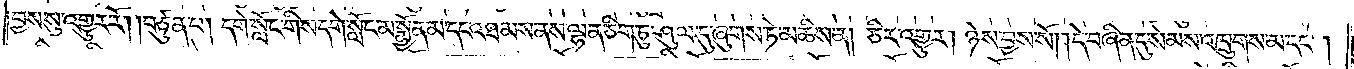བྱས་སུ་འགྱུར་རོ། །བཙུན་པ། དགེ་སློང་གིས་དགེ་སློང་མ་སྨྱོན་མ་དང་འཐམས་ནས་ལྷན་ཅིག་ཏུ་ཤུལ་དུ་ཞུགས་ཏེ་མཆིས་ན། ཅིར་འགྱུར། ཉེས་བྱས་སོ། །དེ་བཞིན་དུ་སེམས་འཁྲུགས་མ་དང༌།
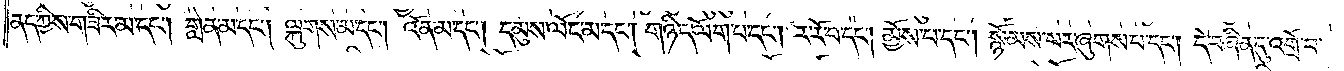ནད་ཀྱིས་གཟིར་མ་དང༌། གླེན་མ་དང༌། ལྐུགས་མ་དང༌། འོན་མ་དང༌། དམུས་ལོང་མ་དང༌། གཉིད་ལོག་པ་དང༌། ར་རོ་བ་དང༌། མྱོས་པ་དང༌། སྙོམས་པར་ཞུགས་པ་དང༌། དེ་བཞིན་དུ་འགྲོ་བ་
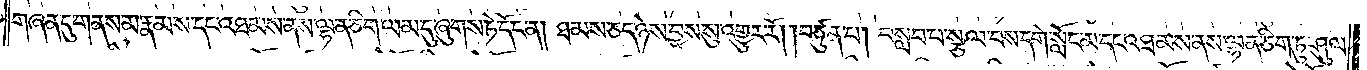གཞན་དུ་གནས་མ་རྣམས་དང་འཐམས་ནས་ལྷན་ཅིག་ལམ་དུ་ཞུགས་ཏེ་དོང་ན། ཐམས་ཅད་ཉེས་བྱས་སུ་འགྱུར་རོ། །བཙུན་པ། བསླབ་པ་སྩལ་བས་དགེ་སློང་མ་དང་འཐམས་ནས་ལྷན་ཅིག་ཏུ་ཤུལ་
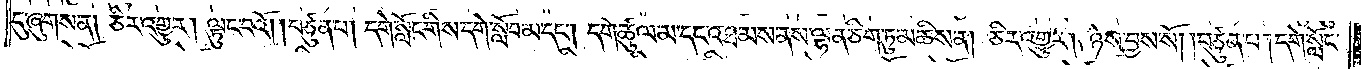དུ་ཞུགས་ན། ཅིར་འགྱུར། ལྟུང་བའོ། །བཙུན་པ། དགེ་སློང་གིས་དགེ་སློབ་མ་དང༌། དགེ་ཚུལ་མ་དང་འཐམས་ནས་ལྷན་ཅིག་ཏུ་མཆིས་ན། ཅིར་འགྱུར། ཉེས་བྱས་སོ། །བཙུན་པ། དགེ་སློང་
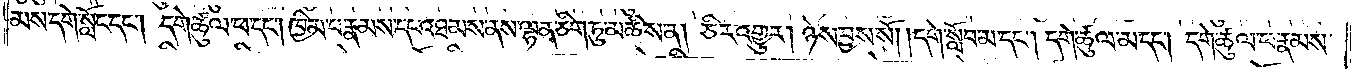མས་དགེ་སློང་དང༌། དགེ་ཚུལ་ཕ་དང༌། ཁྱིམ་པ་རྣམས་དང་འཐམས་ནས་ལྷན་ཅིག་ཏུ་མཆིས་ན། ཅིར་འགྱུར། ཉེས་བྱས་སོ། །དགེ་སློབ་མ་དང༌། དགེ་ཚུལ་མ་དང༌། དགེ་ཚུལ་ཕ་རྣམས་
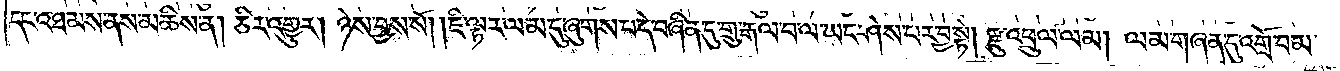དང་འཐམས་ནས་མཆིས་ན། ཅིར་འགྱུར། ཉེས་བྱས་སོ། །ཇི་ལྟར་ལམ་དུ་ཞུགས་པ་དེ་བཞིན་དུ་གྲུ་རྒལ་བ་ལ་ཡང་ཤེས་པར་བྱ་སྟེ། རྫུ་འཕྲུལ་ལམ། ལམ་གཞན་དུ་འགྲོ་བ་མ་
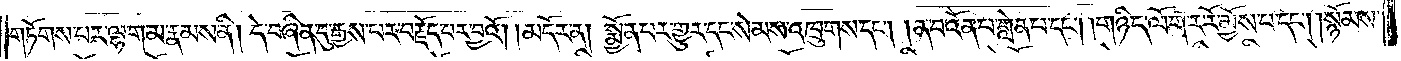གཏོགས་པར་ལྷག་མ་རྣམས་ནི། དེ་བཞིན་དུ་རྒྱས་པར་བརྗོད་པར་བྱའོ།    །མདོར་ན། སྨྱོན་པར་གྱུར་དང་སེམས་འཁྲུགས་དང༌། །ན་བ་འོན་པ་གླེན་པ་དང༌། །གཉིད་ལོག་ར་རོ་མྱོས་པ་དང༌། །སྙོམས་
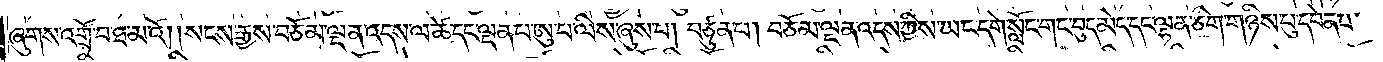ཞུགས་འགྲོ་བ་ཐ་མ་འོ། །སངས་རྒྱས་བཅོམ་ལྡན་འདས་ལ་ཚེ་དང་ལྡན་པ་ཨུ་པ་ལིས་ཞུས་པ། བཙུན་པ། བཅོམ་ལྡན་འདས་ཀྱིས་ཡང་དགེ་སློང་གང་བུད་མེད་དང་ལྷན་ཅིག་གཉིས་པུ་དབེན་པ་
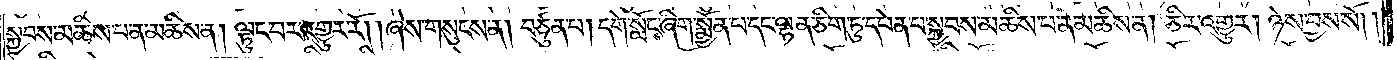སྐྱབས་མཆིས་པ་ན་མཆིས་ན། ལྟུང་བར་འགྱུར་རོ། །ཞེས་གསུངས་ན། བཙུན་པ། དགེ་སློང་ཞིག་སྨྱོན་པ་དང་ལྷན་ཅིག་ཏུ་དབེན་པ་སྐྱབས་མཆིས་པ་ན་མཆིས་ན། ཅིར་འགྱུར། ཉེས་བྱས་སོ། །
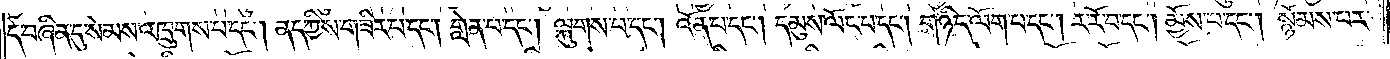དེ་བཞིན་དུ་སེམས་འཁྲུགས་པ་དང༌། ནད་ཀྱིས་གཟིར་པ་དང༌། གླེན་པ་དང༌། ལྐུགས་པ་དང༌། འོན་པ་དང༌། དམུས་ལོང་པ་དང༌། གཉིད་ལོག་པ་དང༌། ར་རོ་བ་དང༌། མྱོས་པ་དང༌། སྙོམས་པར་
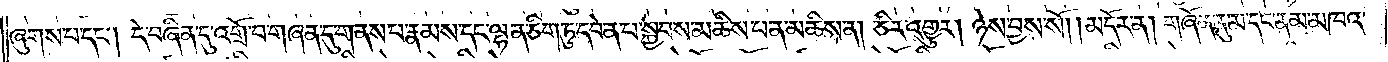ཞུགས་པ་དང༌། དེ་བཞིན་དུ་འགྲོ་བ་གཞན་དུ་གནས་པ་རྣམས་དང་ལྷན་ཅིག་ཏུ་དབེན་པ་སྐྱབས་མཆིས་པ་ན་མཆིས་ན། ཅིར་འགྱུར། ཉེས་བྱས་སོ། །མདོར་ན། གཞོན་ནུ་མ་དང་ནམ་མཁའ་
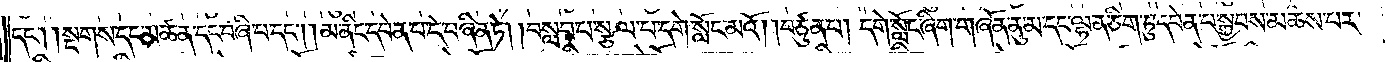དང༌། །སྔགས་དང་མཚན་དང་བཞི་པ་དང༌། །མ་ནིང་དབེན་པ་དེ་བཞིན་ཏེ། །བསླབ་པ་སྩལ་པ་དགེ་སློང་མའོ། །བཙུན་པ། དགེ་སློང་ཞིག་གཞོན་ནུ་མ་དང་ལྷན་ཅིག་ཏུ་དབེན་པ་སྐྱབས་མཆིས་པར་
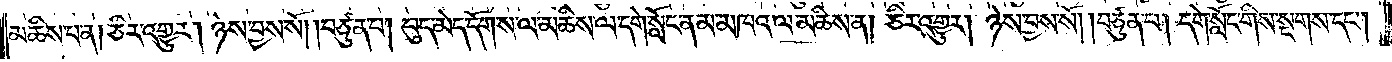མཆིས་པ་ན། ཅིར་འགྱུར། ཉེས་བྱས་སོ། །བཙུན་པ། བུད་མེད་དོགས་ལ་མཆིས་ལ་དགེ་སློང་ནམ་མཁའ་ལ་མཆིས་ན། ཅིར་འགྱུར། ཉེས་བྱས་སོ། །བཙུན་པ། དགེ་སློང་གིས་སྔགས་དང༌།
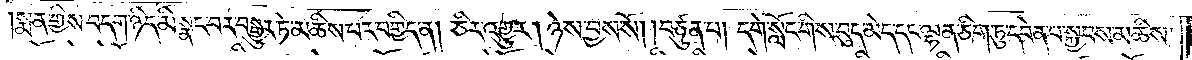སྨན་གྱིས་བདག་ཉིད་མི་སྣང་བར་བསྒྱུར་ཏེ་མཆིས་པར་བགྱིད་ན། ཅིར་འགྱུར། ཉེས་བྱས་སོ། །བཙུན་པ། དགེ་སློང་གིས་བུད་མེད་དང་ལྷན་ཅིག་ཏུ་དབེན་པ་སྐྱབས་མཆིས་
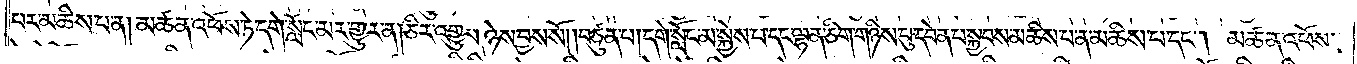པར་མཆིས་པ་ན། མཚན་འཕོས་ཏེ་དགེ་སློང་མར་གྱུར་ན། ཅིར་འགྱུར། ཉེས་བྱས་སོ། །བཙུན་པ། དགེ་སློང་མ་སྐྱེས་པ་དང་ལྷན་ཅིག་གཉིས་པུ་དབེན་པ་སྐྱབས་མཆིས་པ་ན་མཆིས་པ་དང༌། མཚན་འཕོས་
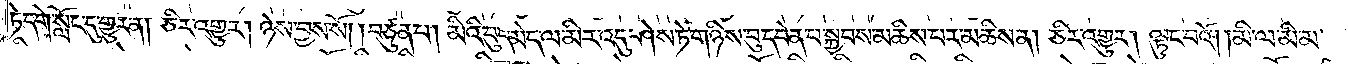ཏེ་དགེ་སློང་དུ་གྱུར་ན། ཅིར་འགྱུར། ཉེས་བྱས་སོ། །བཙུན་པ། མིའི་བུད་མེད་ལ་མིར་འདུ་ཤེས་ཏེ་གཉིས་སུ་དབེན་པ་སྐྱབས་མཆིས་པར་མཆིས་ན། ཅིར་འགྱུར། ལྟུང་བའོ། །མི་ལ་མི་མ་
